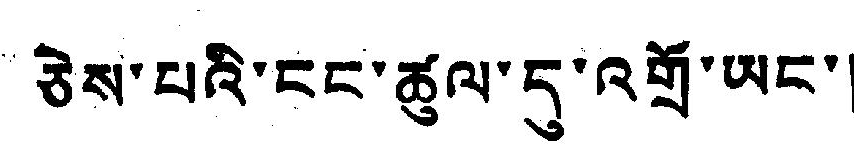ཅེས་པའི་ངང་ཚུལ་དུ་འགྲོ་ཡང་།
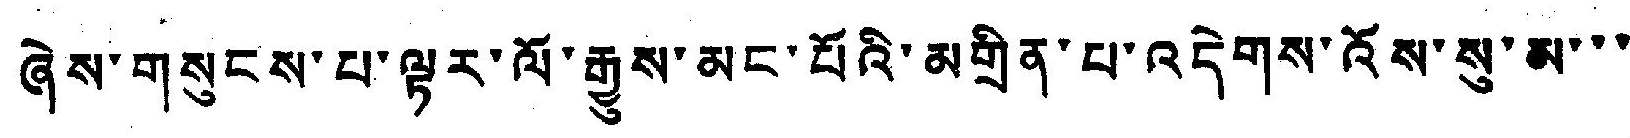ཞེས་གསུངས་པ་ལྟར་ལོ་རྒྱུས་མང་པོའི་མགྲིན་པ་འདེགས་འོས་སུ་མ་་་
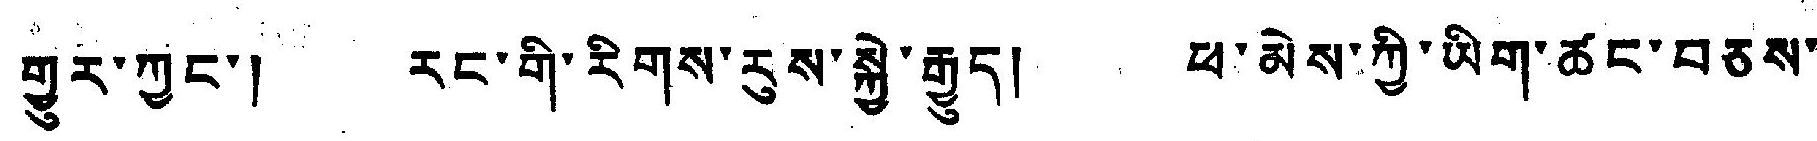གྱུར་ཀྱང་། རང་གི་རིགས་རུས་སྐྱེ་རྒྱུད། ཕ་མེས་ཀྱི་ཡིག་ཚང་བཅས་
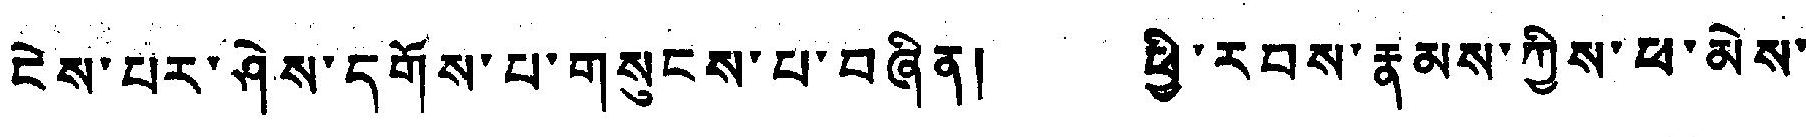ངེས་པར་ཤེས་དགོས་པ་གསུངས་པ་བཞིན། ཕྱི་རབས་རྣམས་ཀྱིས་ཕ་མེས་
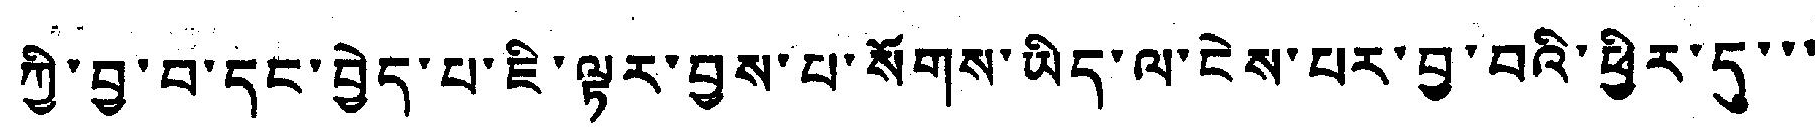ཀྱི་བྱ་བ་དང་བྱེད་པ་ཇི་ལྟར་བྱས་པ་སོགས་ཡིད་ལ་ངེས་པར་བྱ་བའི་ཕྱིར་དུ་་་
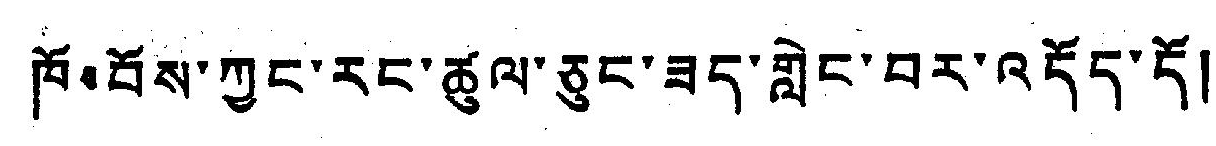ཁོ་བོས་ཀྱང་རང་ཚུལ་ཅུང་ཟད་གླེང་བར་འདོད་དོ།
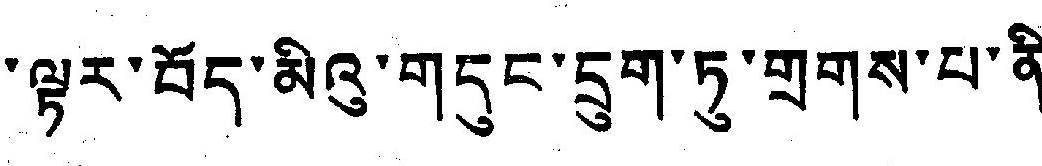དེ་ལྟར་བོད་མིའུ་གདུང་དྲུག་ཏུ་གྲགས་པ་ནི།
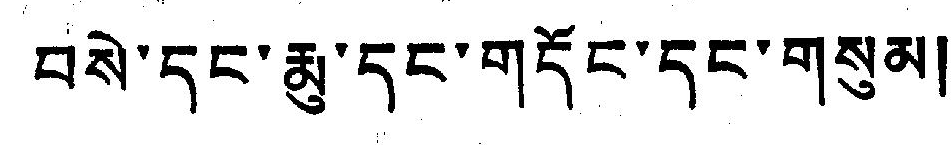བསེ་དང་རྨུ་དང་གདོང་དང་གསུམ།
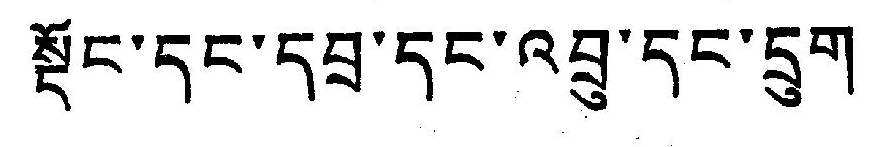སྡོང་དང་དབྲ་དང་འབྲུ་དང་དྲུག
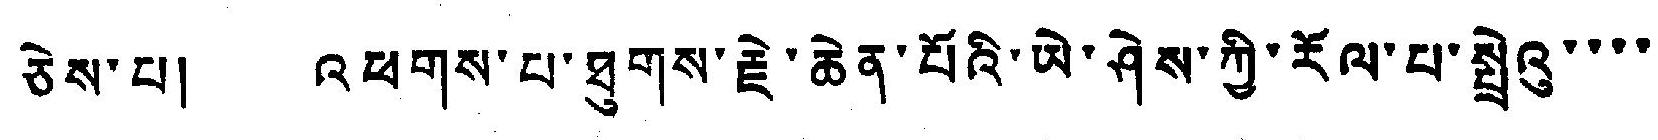ཅེས་པ། འཕགས་པ་ཐུགས་རྗེ་ཆེན་པོའི་ཡེ་ཤེས་ཀྱི་རོལ་པ་སྤྲེའུ་་་་
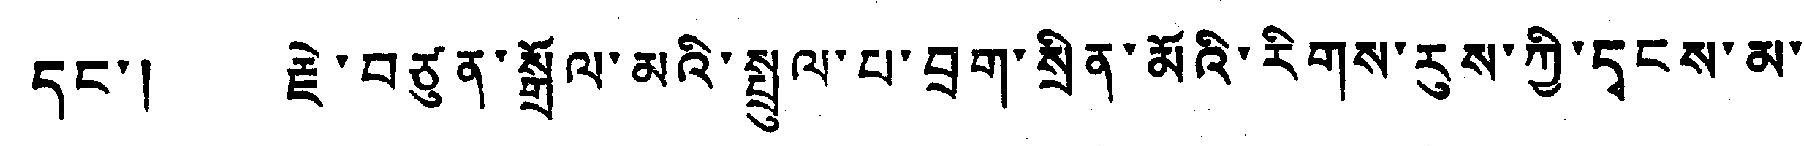དང་། རྗེ་བཙུན་སྒྲོལ་མའི་སྤྲུལ་པ་བྲག་སྲིན་མོའི་རིགས་རུས་ཀྱི་དྭངས་མ་་
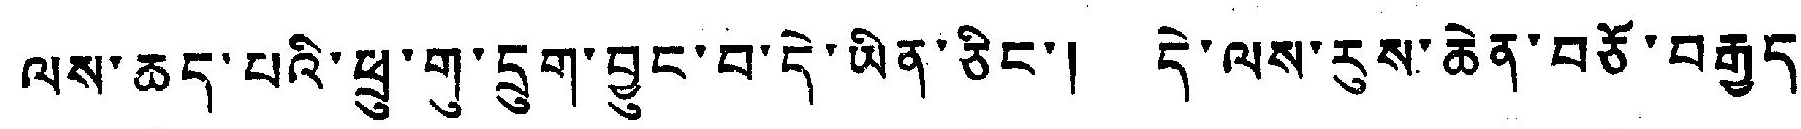ལས་ཆད་པའི་ཕྲུ་གུ་དྲུག་བྱུང་བ་དེ་ཡིན་ཅིང་། དེ་ལས་རུས་ཆེན་བཅོ་བརྒྱད་
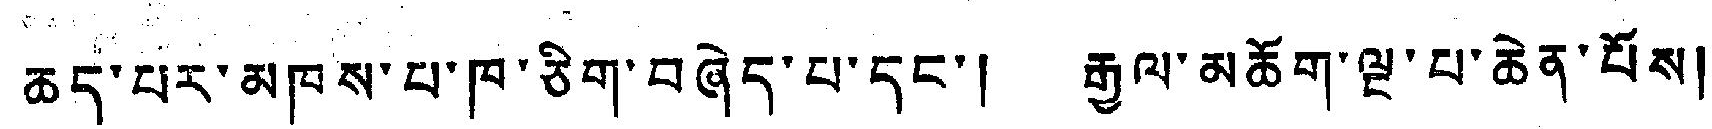ཆད་པར་མཁས་པ་ཁ་ཅིག་བཞེད་པ་དང་། རྒྱལ་མཆོག་ལྔ་པ་ཆེན་པོས།
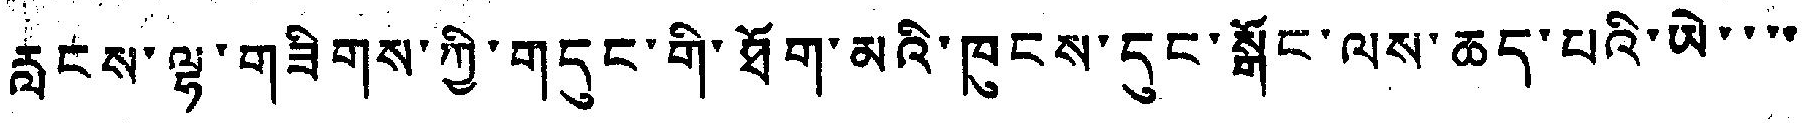རླངས་ལྷ་གཟིགས་ཀྱི་གདུང་གི་ཐོག་མའི་ཁུངས་དང་སྒོང་ལས་ཆད་པའི་ཡེ་་་་
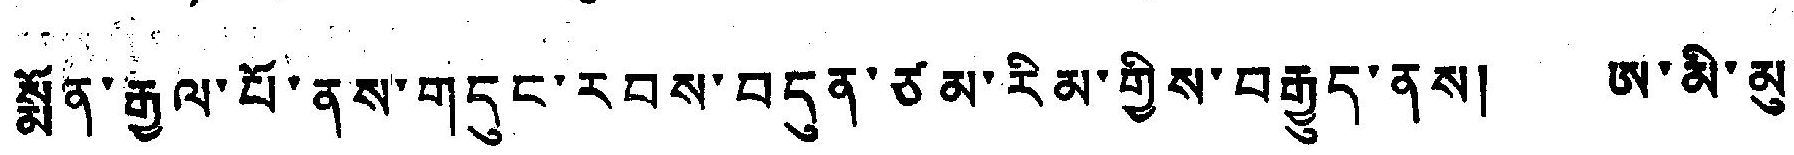སྨོན་རྒྱལ་པོ་ནས་གདུང་རབས་བདུན་ཙམ་རིམ་གྱིས་བཅུད་ནས། ཨ་མི་མུ་
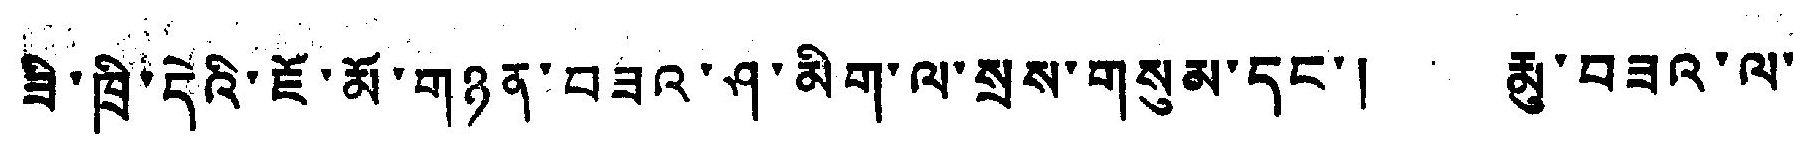ཟི་ཁྲི་དེའི་ཇོ་མོ་གཉན་བཟའ་ཤ་མིག་ལ་སྲས་གསུམ་དང་། མུ་བཟའ་ལ་་
